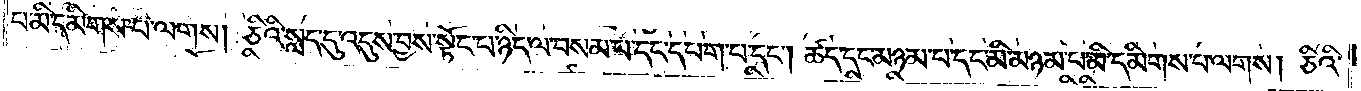པ་མི་དམིགས་པ་ལགས། ཅིའི་སླད་དུ་འདུས་བྱས་སྟོང་པ་ཉིད་ལ་བསམ་པ་དང་དཔག་པ་དང༌། ཚད་དང་མཉམ་པ་དང་མི་མཉམ་པ་མི་དམིགས་པ་ལགས། ཅིའི་
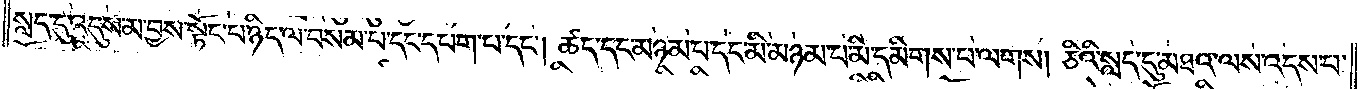སླད་དུ་འདུས་མ་བྱས་སྟོང་པ་ཉིད་ལ་བསམ་པ་དང་དཔག་པ་དང༌། ཚད་དང་མཉམ་པ་དང་མི་མཉམ་པ་མི་དམིགས་པ་ལགས། ཅིའི་སླད་དུ་མཐའ་ལས་འདས་པ་
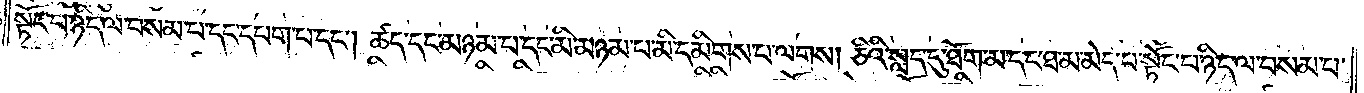སྟོང་པ་ཉིད་ལ་བསམ་པ་དང་དཔག་པ་དང༌། ཚད་དང་མཉམ་པ་དང་མི་མཉམ་བ་མི་དམིགས་པ་ལགས། ཅིའི་སླད་དུ་ཐོག་མ་དང་ཐ་མ་མེད་པ་སྟོང་པ་ཉིད་ལ་བསམ་པ་
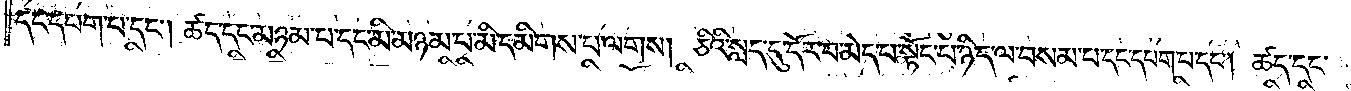དང་དཔག་པ་དང༌། ཚད་དང་མཉམ་པ་དང་མི་མཉམ་པ་མི་དམིགས་པ་ལགས། ཅིའི་སླད་དུ་དོར་བ་མེད་པ་སྟོང་པ་ཉིད་ལ་བསམ་པ་དང་དཔག་པ་དང༌། ཚད་དང་
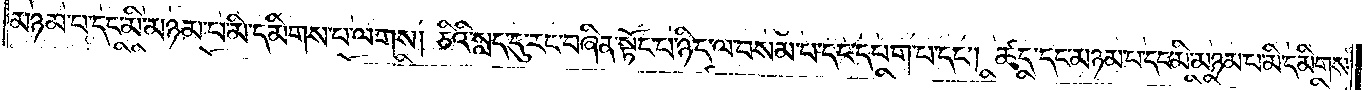མཉམ་པ་དང་མི་མཉམ་པ་མི་དམིགས་པ་ལགས། ཅིའི་སླད་དུ་རང་བཞིན་སྟོང་པ་ཉིད་ལ་བསམ་པ་དང་དཔག་པ་དང༌། ཚད་དང་མཉམ་པ་དང་མི་མཉམ་པ་མི་དམིགས་
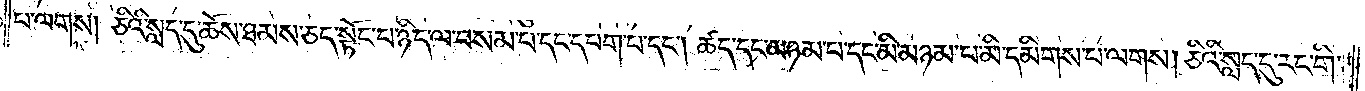པ་ལགས། ཅིའི་སླད་དུ་ཆོས་ཐམས་ཅད་སྟོང་པ་ཉིད་ལ་བསམ་པ་དང་དཔག་པ་དང༌། ཚད་དང་མཉམ་པ་དང་མི་མཉམ་པ་མི་དམིགས་པ་ལགས། ཅིའི་སླད་དུ་རང་གི་
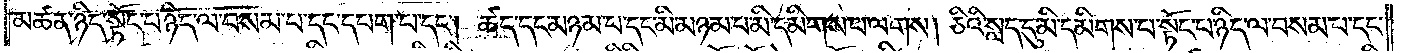མཚན་ཉིད་སྟོང་པ་ཉིད་ལ་བསམ་པ་དང་དཔག་པ་དང༌། ཚད་དང་མཉམ་པ་དང་མི་མཉམ་པ་མི་དམིགས་པ་ལགས། ཅིའི་སླད་དུ་མི་དམིགས་པ་སྟོང་པ་ཉིད་ལ་བསམ་པ་དང་
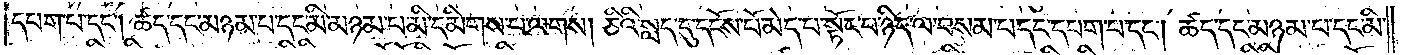དཔག་པ་དང༌། ཚད་དང་མཉམ་པ་དང་མི་མཉམ་པ་མི་དམིགས་པ་ལགས། ཅིའི་སླད་དུ་དངོས་པོ་མེད་པ་སྟོང་པ་ཉིད་ལ་བསམ་པ་དང་དཔག་པ་དང༌། ཚད་དང་མཉམ་པ་དང་མི་
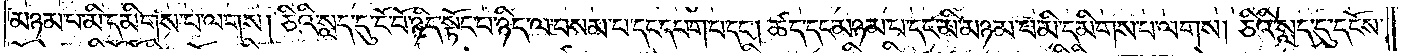མཉམ་པ་མི་དམིགས་པ་ལགས། ཅིའི་སླད་དུ་ངོ་བོ་ཉིད་སྟོང་པ་ཉིད་ལ་བསམ་པ་དང་དཔག་པ་དང༌། ཚད་དང་མཉམ་པ་དང་མི་མཉམ་པ་མི་དམིགས་པ་ལགས། ཅིའི་སླད་དུ་དངོས་
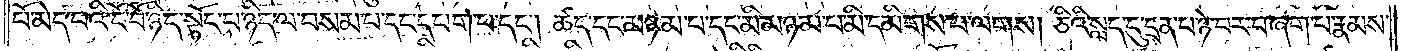པོ་མེད་པའི་ངོ་བོ་ཉིད་སྟོང་པ་ཉིད་ལ་བསམ་པ་དང་དཔག་པ་དང༌། ཚད་དང་མཉམ་པ་དང་མི་མཉམ་པ་མི་དམིགས་པ་ལགས། ཅིའི་སླད་དུ་དྲན་པ་ཉེ་བར་བཞག་པ་རྣམས་
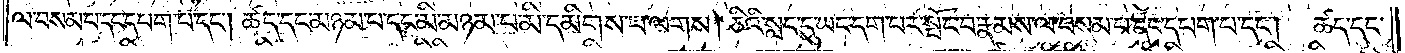ལ་བསམ་པ་དང་དཔག་པ་དང༌། ཚད་དང་མཉམ་པ་དང་མི་མཉམ་པ་མི་དམིགས་པ་ལགས། ཅིའི་སླད་དུ་ཡང་དག་པར་སྤོང་བ་རྣམས་ལ་བསམ་པ་དང་དཔག་པ་དང༌། ཚད་དང་
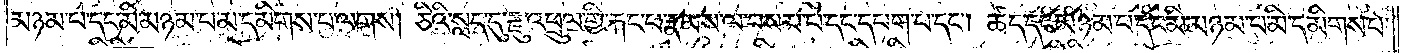མཉམ་པ་དང་མི་མཉམ་པ་མི་དམིགས་པ་ལགས། ཅིའི་སླད་དུ་རྫུ་འཕྲུལ་གྱི་རྐང་པ་རྣམས་ལ་བསམ་པ་དང་དཔག་པ་དང༌། ཚད་དང་མཉམ་པ་དང་མི་མཉམ་པ་མི་དམིགས་པ་
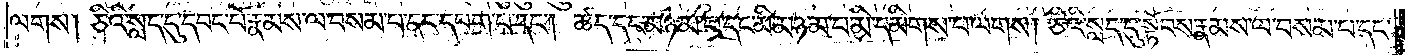ལགས། ཅིའི་སླད་དུ་དབང་པོ་རྣམས་ལ་བསམ་པ་དང་དཔག་པ་དང༌། ཚད་དང་མཉམ་པ་དང་མི་མཉམ་པ་མི་དམིགས་པ་ལགས། ཅིའི་སླད་དུ་སྟོབས་རྣམས་ལ་བསམ་པ་དང་
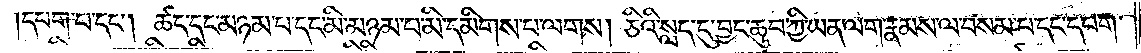དཔག་པ་དང༌། ཚད་དང་མཉམ་པ་དང་མི་མཉམ་པ་མི་དམིགས་པ་ལགས། ཅིའི་སླད་དུ་བྱང་ཆུབ་ཀྱི་ཡན་ལག་རྣམས་ལ་བསམ་པ་དང་དཔག་
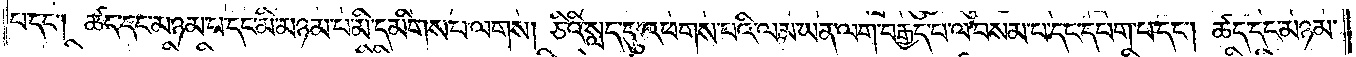པ་དང༌། ཚད་དང་མཉམ་པ་དང་མི་མཉམ་པ་མི་དམིགས་པ་ལགས། ཅིའི་སླད་དུ་འཕགས་པའི་ལམ་ཡན་ལག་བརྒྱད་པ་ལ་བསམ་པ་དང་དཔག་པ་དང༌། ཚད་དང་མཉམ་
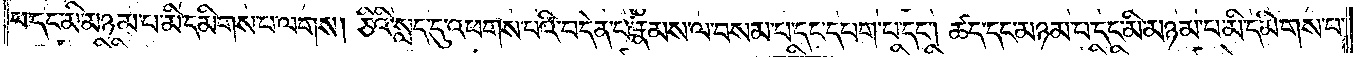པ་དང་མི་མཉམ་པ་མི་དམིགས་པ་ལགས། ཅིའི་སླད་དུ་འཕགས་པའི་བདེན་པ་རྣམས་ལ་བསམ་པ་དང་དཔག་པ་དང༌། ཚད་དང་མཉམ་པ་དང་མི་མཉམ་པ་མི་དམིགས་པ་
